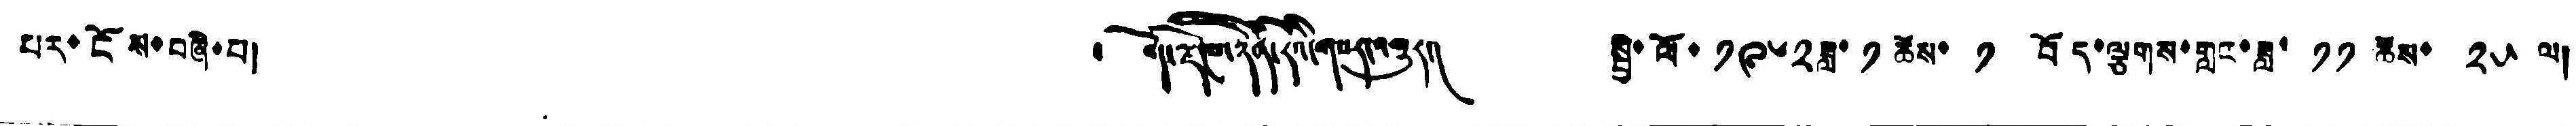པར་ངོས་བཞི་པ། ༄ བོད་ལྗོངས་ཉིན་རེའི་གསར་འགྱུར། སྤྱི་ལོ་ ༡༩༦༢ ཟླ་ ༡ ཚེས་ ༡ བོད་ལྕགས་གླང་ཟླ་ ༡༡ ཚེས་ ༢༥ ལ།
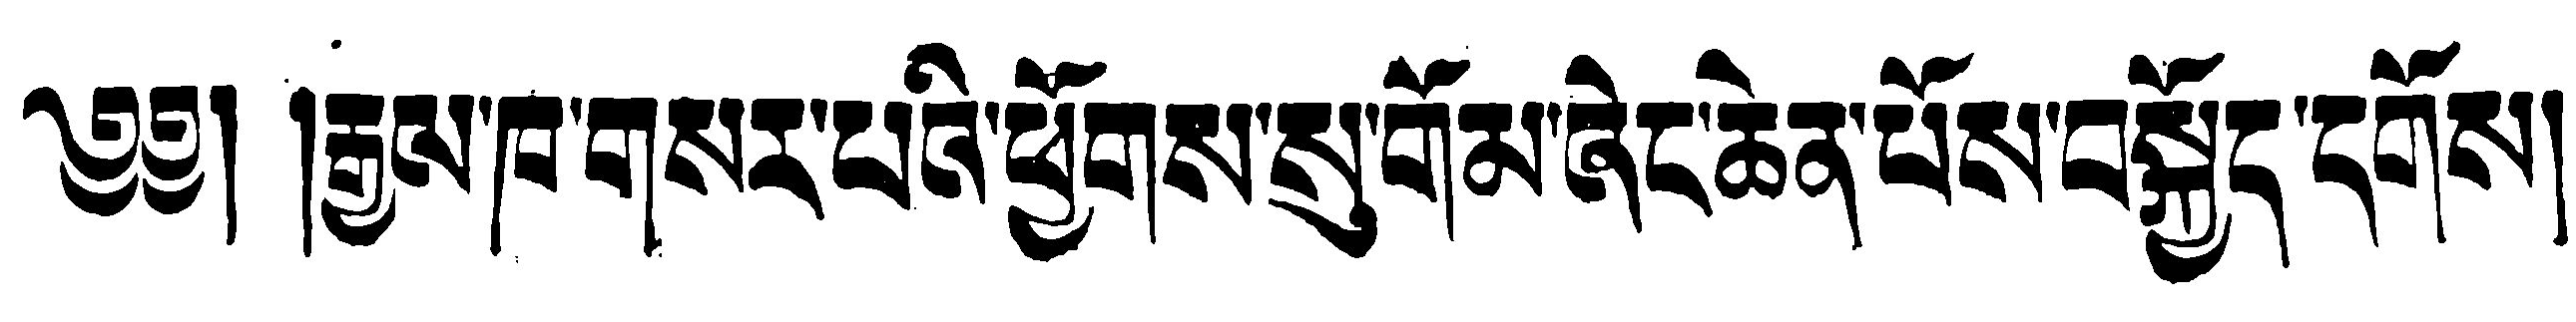༄༅། །རྒྱལ་ཁ་གསར་པའི་ཕྱོགས་སུ་གོམ་ཞེང་ཆེན་པོས་བསྐྱོད་དགོས།།
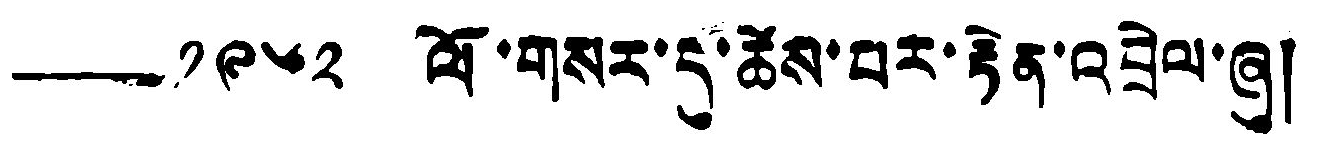——༡༩༦༢ ལོ་གསར་དུ་ཚེས་བར་རྟེན་འབྲེལ་ཞུ།
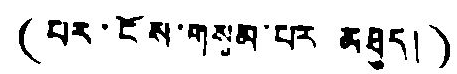( པར་ངོས་གསུམ་པར མཐུད། )
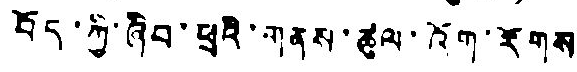བོད་ཀྱི་ཞིབ་ཕྲའི་གནས་ཚུལ་འོག་རོགས
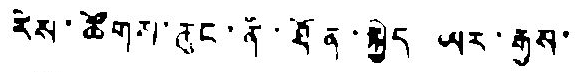རེས་ཚོགས་ཆུང་ནི་ཐོན་སྐྱེད ཡར་རྒྱས་
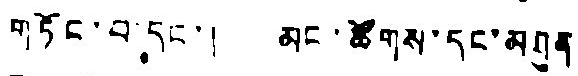གཏོང་བ་དང་། མང་ཚོགས་དང་མཐུན
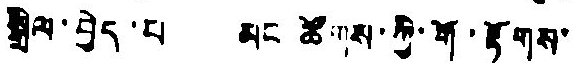སྒྲིལ་བྱེད་པ མང ཚོགས་ཀྱི་གོ་རྟོགས་
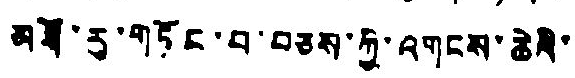མཐོ་རུ་གཏོང་བ་བཅས་ཀྱི་འགངས་ཆེའི
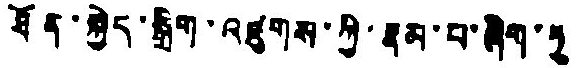ཐོན་སྐྱེད་སྒྲིག་འཛུགས་ཀྱི་རྣམ་པ་ཞིག་ཏུ
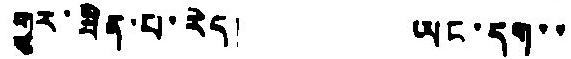གྱུར་ཟིན་པ་རེད། ཡང་དག་་
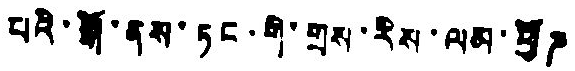པའི་སྒོ་ནས་ཏང་གི་གྲས་རིས་ལམ་ཕྱོཌ
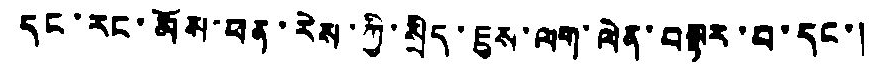དང་རང་མོས་ཕན་རེས་ཀྱི་སྲིད་ཇུས་ལག་ལེན་བསྟར་བ་དང་།
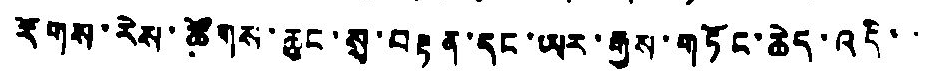རོགས་རེས་ཚོགས་ཆུང་སྲ་བརྟན་དང་ཡར་རྒྱས་གཏོང་ཆེད་འདི་་
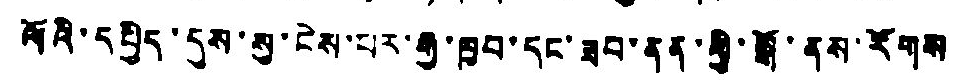ལོའི་དཔྱིད་དུས་སུ་ངེས་པར་རྒྱ་ཁྱབ་དང་ཟབ་ནན་གྱི་སྒོ་ནུས་རོགས
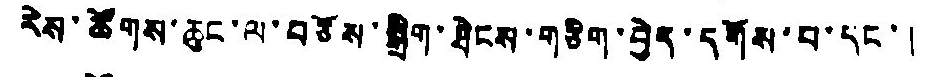རེས་ཚོགས་ཆུང་ལ་བཅོས་སྒྲིག་ཐེངས་གཅིག་བྱེད་དགོས་པ་དང་།
